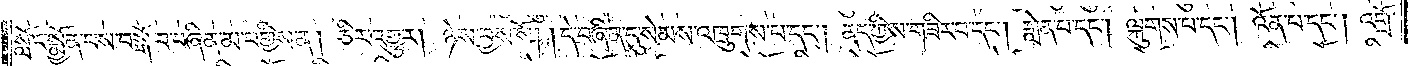སློང་སྨྱོན་པས་བསྒོ་བ་བཞིན་མ་བགྱིས་ན། ཅིར་འགྱུར། ཉེས་བྱས་སོ། །དེ་བཞིན་དུ་སེམས་འཁྲུགས་པ་དང༌། ནད་ཀྱིས་གཟིར་བ་དང༌། གླེན་པ་དང༌། ལྐུགས་པ་དང༌། འོན་པ་དང༌། འགྲོ་
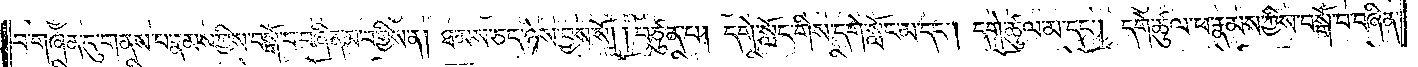བ་གཞན་དུ་གནས་པ་རྣམས་ཀྱིས་བསྒོ་བ་བཞིན་མ་བགྱིས་ན། ཐམས་ཅད་ཉེས་བྱས་སོ། །བཙུན་པ། དགེ་སློང་གིས་དགེ་སློང་མ་དང༌། དགེ་ཚུལ་མ་དང༌། དགེ་ཚུལ་ཕ་རྣམས་ཀྱིས་བསྒོ་བ་བཞིན་
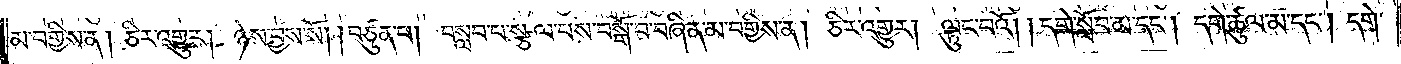མ་བགྱིས་ན། ཅིར་འགྱུར། ཉེས་བྱས་སོ། །བཙུན་པ། བསླབ་པ་སྩལ་པས་བསྒོ་བ་བཞིན་མ་བགྱིས་ན། ཅིར་འགྱུར། ལྟུང་བའོ། །དགེ་སློབ་མ་དང༌། དགེ་ཚུལ་མ་དང༌། དགེ་
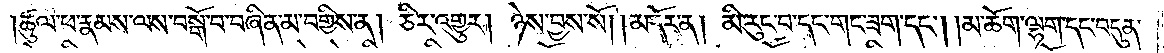།ཚུལ་ཕ་རྣམས་ལས་བསྒོ་བ་བཞིན་མ་བགྱིས་ན། ཅིར་འགྱུར། ཉེས་བྱས་སོ།    །མདོར་ན། མི་རུང་བ་དང་གང་ཟག་དང༌། །མ་ཆོག་ལྷག་དང་བདུན་
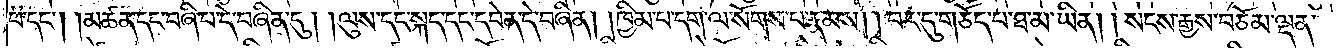པ་དང༌། །མཚན་དང་བཞི་པ་དེ་བཞིན་དུ། །ལུས་དང་སྐད་དང་དབེན་དེ་བཞིན། །ཁྱིམ་པ་དག་ལ་སོགས་པ་རྣམས། །བར་དུ་གཅོད་པ་ཐ་མ་ཡིན། །སངས་རྒྱས་བཅོམ་ལྡན་
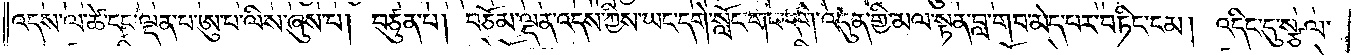འདས་ལ་ཚེ་དང་ལྡན་པ་ཨུ་པ་ལིས་ཞུས་པ། བཙུན་པ། བཅོམ་ལྡན་འདས་ཀྱིས་ཡང་དགེ་སློང་གང་དགེ་འདུན་གྱི་མལ་སྟན་བླ་གབ་མེད་པར་བཏིང་ངམ། འདིང་དུ་སྩལ་
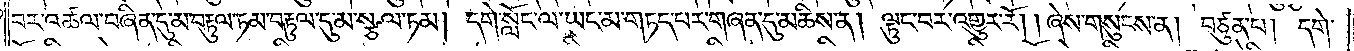བར་འཚལ་བཞིན་དུ་མ་བརྟུལ་ཏམ་བརྟུལ་དུ་མ་སྩལ་ཏམ། དགེ་སློང་ལ་ཡང་མ་གཏད་པར་གཞན་དུ་མཆིས་ན། ལྟུང་བར་འགྱུར་རོ། །ཞེས་གསུངས་ན། བཙུན་པ། དགེ་
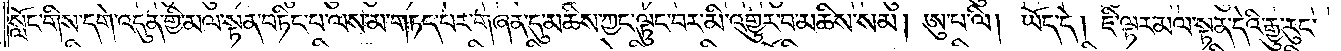སློང་གིས་དགེ་འདུན་གྱི་མལ་སྟན་བཏིང་པ་ལས་མ་གཏད་པར་གཞན་དུ་མཆིས་ཀྱང་ལྟུང་བར་མི་འགྱུར་བ་མཆིས་སམ། ཨུ་པ་ལི། ཡོད་དེ། ཇི་ལྟར་མལ་སྟན་དེའི་རྒྱུ་རུང་
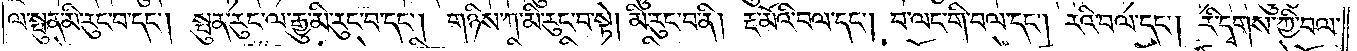ལ་སྤུན་མི་རུང་བ་དང༌། སྤུན་རུང་ལ་རྒྱུ་མི་རུང་བ་དང༌། གཉིས་ཀ་མི་རུང་བ་སྟེ། མི་རུང་བ་ནི། རྔ་མོའི་བལ་དང༌། བ་ལང་གི་བལ་དང༌། རའི་བལ་དང༌། རི་དྭགས་ཀྱི་བལ་
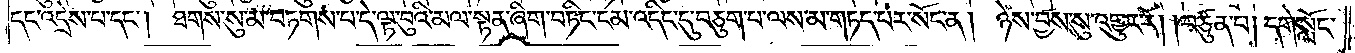དང་འདྲེས་པ་དང༌།  ཐགས་སུ་མ་བཏགས་པ་དེ་ལྟ་བུའི་མལ་སྟན་ཞིག་བཏིང་ངམ་འདིང་དུ་བཅུག་པ་ལས་མ་གཏད་པར་སོང་ན། ཉེས་བྱས་སུ་འགྱུར་རོ། །བཙུན་པ། དགེ་སློང་
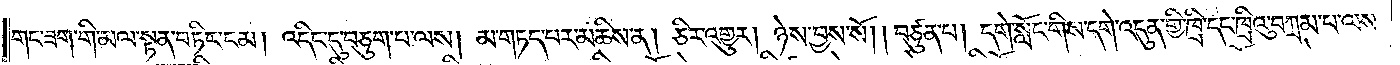གང་ཟག་གི་མལ་སྟན་བཏིང་ངམ། འདིང་དུ་བཅུག་པ་ལས། མ་གཏད་པར་མཆིས་ན། ཅིར་འགྱུར། ཉེས་བྱས་སོ། །བཙུན་པ། དགེ་སློང་གིས་དགེ་འདུན་གྱི་ཁྲི་དང་ཁྲིའུ་བཀྲམ་པ་ལས་
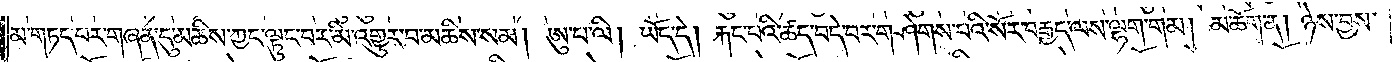མ་གཏད་པར་གཞན་དུ་མཆིས་ཀྱང་ལྟུང་བར་མི་འགྱུར་བ་མཆིས་སམ། ཨུ་པ་ལི། ཡོད་དེ། རྐང་པའི་ཚད་བདེ་བར་གཤེགས་པའི་སོར་བརྒྱད་ལས་ལྷག་གམ། མ་ཆོག་ན། ཉེས་བྱས་
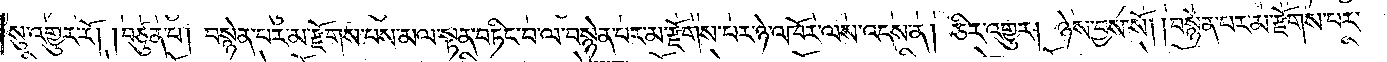སུ་འགྱུར་རོ། །བཙུན་པ། བསྙེན་པར་མ་རྫོགས་པས་མལ་སྟན་བཏིང་བ་ལ་བསྙེན་པར་མ་རྫོགས་པར་ཉེ་འཁོར་ལས་འདས་ན། ཅིར་འགྱུར། ཉེས་བྱས་སོ། །བསྙེན་པར་མ་རྫོགས་པར་
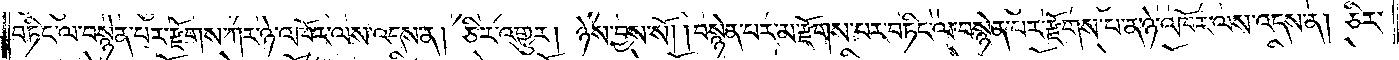བཏིང་ལ་བསྙེན་པར་རྫོགས་ཀར་ཉེ་འཁོར་ལས་འདས་ན། ཅིར་འགྱུར། ཉེས་བྱས་སོ། །བསྙེན་པར་མ་རྫོགས་པར་བཏིང་ལ་བསྙེན་པར་རྫོགས་པ་ན་ཉེ་འཁོར་ལས་འདས་ན། ཅིར་
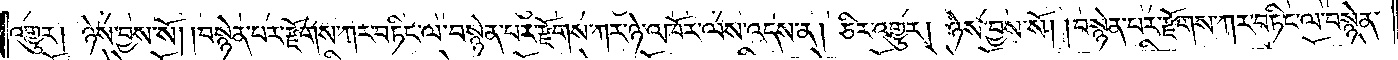འགྱུར། ཉེས་བྱས་སོ། །བསྙེན་པར་རྫོགས་ཀར་བཏིང་ལ་བསྙེན་པར་རྫོགས་ཀར་ཉེ་འཁོར་ལས་འདས་ན། ཅིར་འགྱུར། ཉེས་བྱས་སོ། །བསྙེན་པར་རྫོགས་ཀར་བཏིང་ལ་བསྙེན་
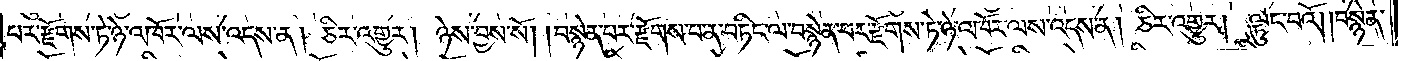པར་རྫོགས་ཏེ་ཉེ་འཁོར་ལས་འདས་ན། ཅིར་འགྱུར། ཉེས་བྱས་སོ། །བསྙེན་པར་རྫོགས་པ་ན་བཏིང་ལ་བསྙེན་པར་རྫོགས་ཏེ་ཉེ་འཁོར་ལས་འདས་ན། ཅིར་འགྱུར། ལྟུང་བའོ། །བསྙེན་
